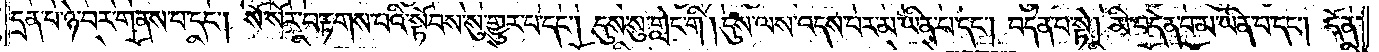དྲན་པ་ཉེ་བར་གནས་པ་དང༌། སོ་སོར་བརྟགས་པའི་སྟོབས་སུ་གྱུར་པ་དང༌། དུས་སུ་གླེང་གི །དུས་ལས་འདས་པར་མ་ཡིན་པ་དང༌། བདེན་པ་སྟེ། མི་བདེན་པ་མ་ཡིན་པ་དང༌། དོན་
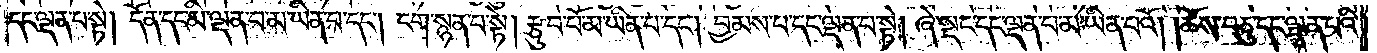དང་ལྡན་པ་སྟེ། དོན་དང་མི་ལྡན་པ་མ་ཡིན་པ་དང༌། ངག་སྙན་པ་སྟེ། རྩུབ་པོ་མ་ཡིན་པ་དང༌། བྱམས་པ་དང་ལྡན་པ་སྟེ། ཞེ་སྡང་དང་ལྡན་པ་མ་ཡིན་པའོ། །ཆོས་བཅུ་དང་ལྡན་པའི་
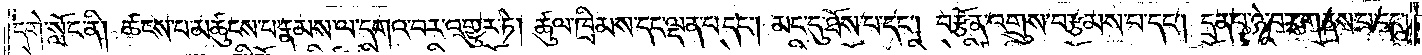དགེ་སློང་ནི། ཚངས་པ་མཚུངས་པ་རྣམས་ལ་དགའ་བར་འགྱུར་ཏེ། ཚུལ་ཁྲིམས་དང་ལྡན་པ་དང༌། མང་དུ་ཐོས་པ་དང༌། བརྩོན་འགྲུས་བརྩམས་པ་དང༌། དྲན་པ་ཉེ་བར་གནས་པ་དང༌།
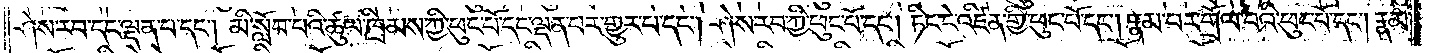ཤེས་རབ་དང་ལྡན་པ་དང༌། མི་སློབ་པའི་ཚུལ་ཁྲིམས་ཀྱི་ཕུང་པོ་དང་ལྡན་པར་གྱུར་པ་དང༌། ཤེས་རབ་ཀྱི་ཕུང་པོ་དང༌། ཏིང་ངེ་འཛིན་གྱི་ཕུང་པོ་དང༌། རྣམ་པར་གྲོལ་བའི་ཕུང་པོ་དང༌། རྣམ་
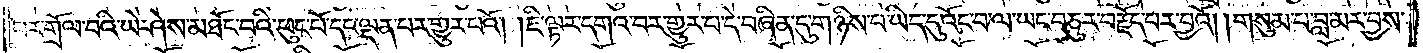པར་གྲོལ་བའི་ཡེ་ཤེས་མཐོང་བའི་ཕུང་པོ་དང་ལྡན་པར་གྱུར་པའོ། །ཇི་ལྟར་དགའ་བར་གྱུར་པ་དེ་བཞིན་དུ་གཉིས་པ་ཡིད་དུ་འོང་བ་ལ་ཡང་བཅུར་བརྗོད་པར་བྱའོ། །གསུམ་པ་བླ་མར་བྱས་
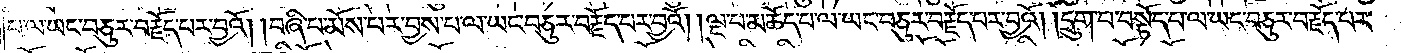པ་ལ་ཡང་བཅུར་བརྗོད་པར་བྱའོ། །བཞི་པ་མོས་པར་བྱས་པ་ལ་ཡང་བཅུར་བརྗོད་པར་བྱའོ། །ལྔ་པ་མཆོད་པ་ལ་ཡང་བཅུར་བརྗོད་པར་བྱའོ། །དྲུག་པ་བསྟོད་པ་ལ་ཡང་བཅུར་བརྗོད་པར་
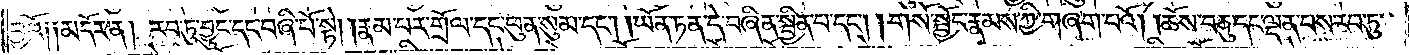བྱའོ། །མདོར་ན། རབ་ཏུ་བྱུང་དང་བཞི་པོ་སྟེ། །རྣམ་པར་གྲོལ་དང་ཕུན་སུམ་དང༌། །ཡོན་ཏན་དེ་བཞིན་སྦྱིན་པ་དང༌། །གསོ་སྦྱོང་རྣམས་ཀྱི་གཞག་པའོ། །ཆོས་བཅུ་དང་ལྡན་པས་རབ་ཏུ་
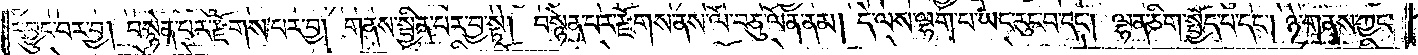དབྱུང་བར་བྱ། བསྙེན་པར་རྫོགས་པར་བྱ། གནས་སྦྱིན་པར་བྱ་སྟེ། བསྙེན་པར་རྫོགས་ནས་ལོ་བཅུ་ལོན་ནམ། དེ་ལས་ལྷག་པ་ཡང་རུང་བ་དང༌། ལྷན་ཅིག་སྤྱོད་པ་དང༌། ཉེ་གནས་ཀྱང་
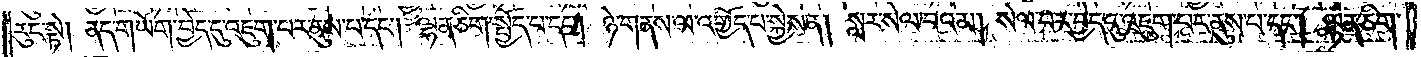རུང་སྟེ། ནད་གཡོག་བྱེད་དུ་འཇུག་པར་ནུས་པ་དང༌། ལྷན་ཅིག་སྤྱོད་པ་དང༌། ཉེ་གནས་ལ་འགྱོད་པ་སྐྱེས་ན། སླར་སེལ་བའམ། སེལ་བར་བྱེད་དུ་འཇུག་པར་ནུས་པ་དང༌། ལྷན་ཅིག་
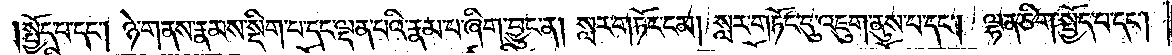སྤྱོད་པ་དང༌། ཉེ་གནས་རྣམས་སྡིག་པ་དང་ལྡན་པའི་རྣམ་པ་ཞིག་བྱུང་ན། སླར་གཏོང་ངམ། སླར་གཏོང་དུ་འཇུག་ནུས་པ་དང༌། ལྷན་ཅིག་སྤྱོད་པ་དང༌།
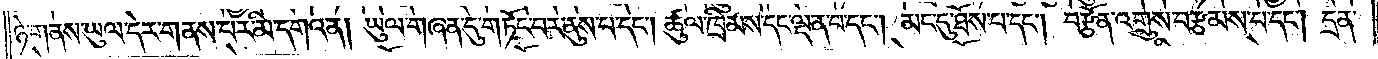ཉེ་གནས་ཡུལ་དེར་གནས་པར་མི་དགའ་ན། ཡུལ་གཞན་དུ་གཏོང་བར་ནུས་པ་དང༌། ཚུལ་ཁྲིམས་དང་ལྡན་པ་དང༌། མང་དུ་ཐོས་པ་དང༌། བརྩོན་འགྲུས་བརྩམས་པ་དང༌། དྲན་
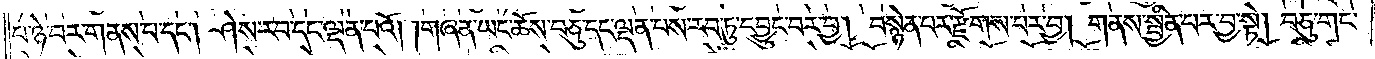པ་ཉེ་བར་གནས་པ་དང༌། ཤེས་རབ་དང་ལྡན་པའོ། །གཞན་ཡང་ཆོས་བཅུ་དང་ལྡན་པས་རབ་ཏུ་དབྱུང་བར་བྱ། བསྙེན་པར་རྫོགས་པར་བྱ། གནས་སྦྱིན་པར་བྱ་སྟེ། བཅུ་གང་
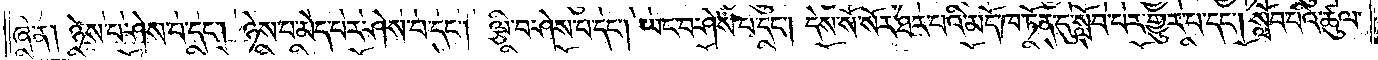ཞེ་ན། ཉེས་པ་ཤེས་པ་དང༌། ཉེས་པ་མེད་པར་ཤེས་པ་དང༌། ལྕི་བ་ཤེས་པ་དང༌། ཡང་བ་ཤེས་པ་དང༌། དེས་སོ་སོར་ཐར་པའི་མདོ་ཁ་ཏོན་དུ་སློབ་པར་གྱུར་པ་དང༌། སློབ་པའི་ཚུལ་
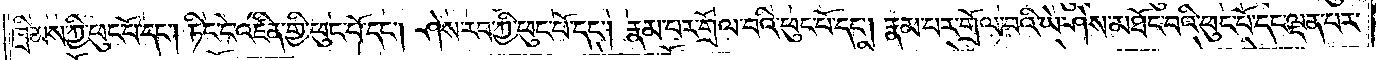ཁྲིམས་ཀྱི་ཕུང་པོ་དང༌། ཏིང་ངེ་འཛིན་གྱི་ཕུང་པོ་དང༌། ཤེས་རབ་ཀྱི་ཕུང་པོ་དང༌། རྣམ་པར་གྲོལ་བའི་ཕུང་པོ་དང༌། རྣམ་པར་གྲོལ་བའི་ཡེ་ཤེས་མཐོང་བའི་ཕུང་པོ་དང་ལྡན་པར་
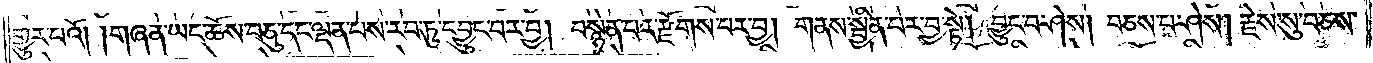གྱུར་པའོ། །གཞན་ཡང་ཆོས་བཅུ་དང་ལྡན་པས་རབ་ཏུ་དབྱུང་བར་བྱ། བསྙེན་པར་རྫོགས་པར་བྱ། གནས་སྦྱིན་པར་བྱ་སྟེ། བྱུང་བ་ཤེས། བཅས་པ་ཤེས། རྗེས་སུ་བཅས་
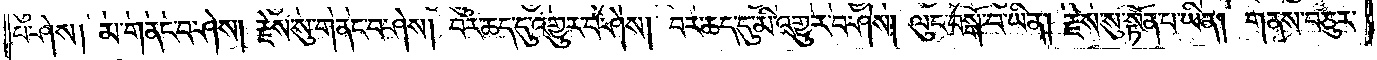པ་ཤེས། མ་གནང་བ་ཤེས། རྗེས་སུ་གནང་བ་ཤེས། བར་ཆད་དུ་འགྱུར་བ་ཤེས། བར་ཆད་དུ་མི་འགྱུར་བ་ཤེས། ལུང་བསྒོ་བ་ཡིན། རྗེས་སུ་སྟོན་པ་ཡིན། གནས་བཅུར་
